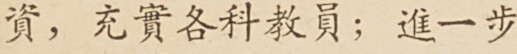資，充實各科教員；進一步
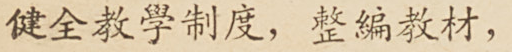健全教學制度，整編教材，
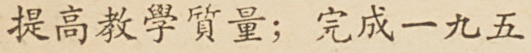提高教學質量；完成一九五
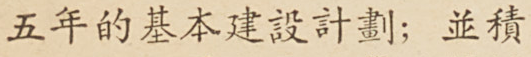五年的基本建設計劃；並積
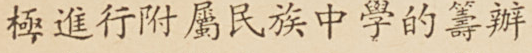極進行附屬民族中學的籌辦
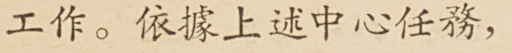工作。依據上述中心任務，
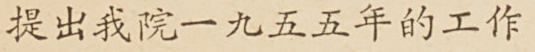提出我院一九五五年的工作
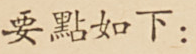要點如下：
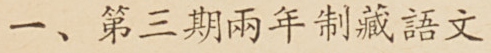一、第三期兩年制藏語文
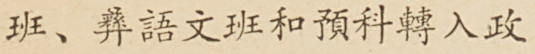班、彝語文班和預科轉入政
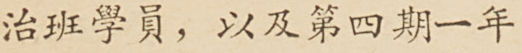治班學員，以及第四期一年
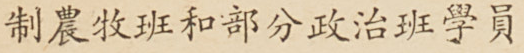制農牧班和部分政治班學員
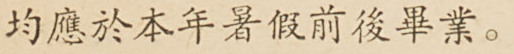均應於本年暑假前後畢業。
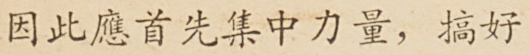因此應首先集中力量，搞好
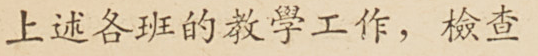上述各班的教學工作，檢查
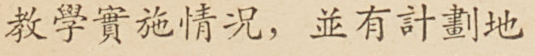教學實施情況，並有計劃地
